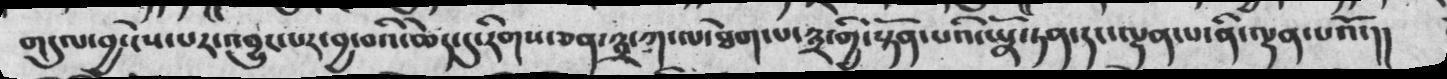གདུལ་བྱ་ངེས་པར་འབྱུང་པར་བྱ་བའི་ཆེད་དུ་རིགས་ཅན་༣་ཀ་ལ་ཐེག་པ་༣་གྱི་སྟོན་པའི་ཡོན་ཏན་ལྡན་པ་ནི་ལྡན་པའོ
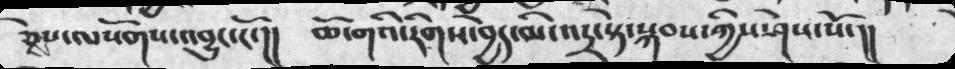ཅེས་པ་ལསོགས་འབྱུང་ངོ་།།  ཆོ་གའི་རིགས་བྱེད་མི་འདྲ་སྟེ་སྐབས་ཀྱིས་ཤེས་སོ་།།
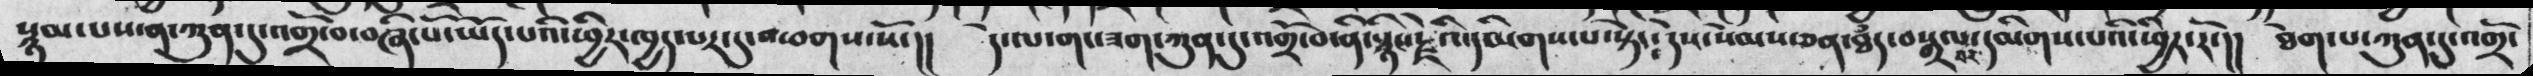སྙམ་པས་ན་ཀུན་དུ་འགྲོ་བ་བཞི་པོ་ཡོད་པའི་ཕྱིར་ཁྱད་པར་དུ་འཕགས་སོ་།།  དེ་ལ་གང་ཟག་ཀུན་དུ་འགྲོ་བ་ནི་སྙིང་རྗེའི་དམིགས་པ་སྟེ༴  དེས་སེམས་ཅན་ཐཾད་བསྒྲལ་བར་དམིགས་པའི་ཕྱིར་རོ་།།  ཐེག་པ་ཀུན་དུ་འགྲོ་
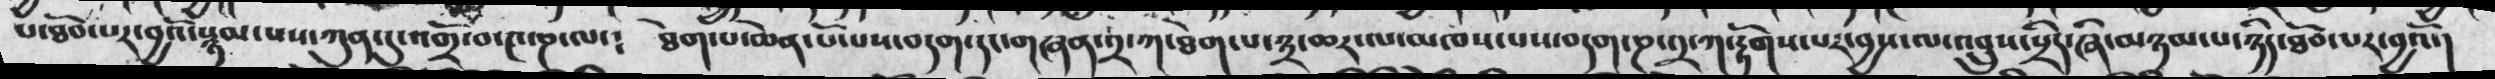པ་ཐོབ་པར་བྱའོ་སྙམ་པས་ཀུན་དུ་འགྲོ་བ་༤་ཎ་ལ་༴  ཐེག་པ་ཆེན་པོ་པས་བདག་དང་གཞན་༢་ཀ་ཐེག་པ་༣་ཆར་ལ་མཁས་པས་བདག་ཎ་༢་ཀ་རྟོགས་པར་བྱས་ལ་འབྲུས་སྲིད་ཞི་མཉམ་པ་ཉིད་ཐོབ་པར་བྱའོ་།
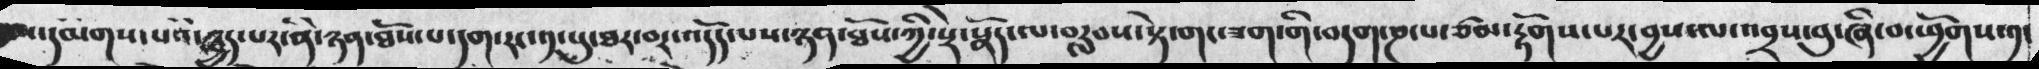་དམགས་པའི་ཁྱད་པར་ནི་ཉན་ཐོས་པ་དག་རང་༡་པུ་ཐར་བར་འདོད་པས་ཉན་ཐོས་ཀྱི་སྡེ་སྣོད་ལ་བརླབས་སྟེ་གང་ཟག་གི་བདག་ཎ་པ་ཙམ་རྟོགས་པར་བྱས་ལ་འབྲས་བུ་ཞི་བ་ཕྱོགས་༡་
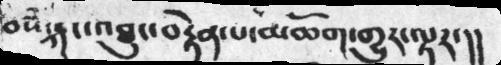བསཾ་རྐང་འཐུང་བརྟེན་པ་མཆོག་གྱུར་ལྟར་།།
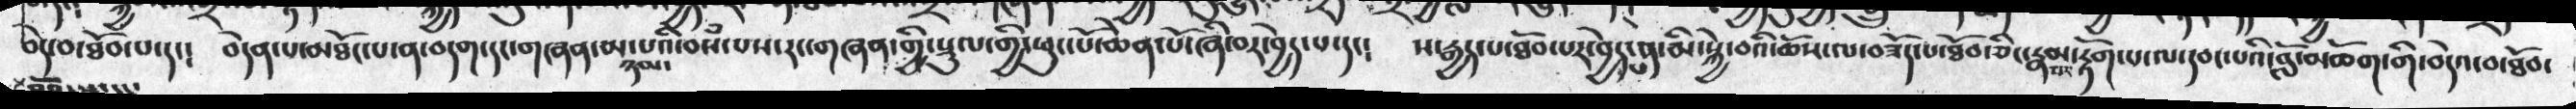བདེ་བ་ཐོབ་པ་དང་༴  བདེན་པ་མཐོང་པ་ན་བདག་དང་གཞན་མ་ཉམ་པའི་བསཾ་པས་རང་གཞན་གྱི་སྡུལ་གྱི་ཕུང་པོ་ཞི་བར་བྱེད་པ་དང་༴  ས་རྒྱད་པ་ཐོབ་པར་བྱེད་པ་ན་མི་སྐྱེ་བའི་ཆོས་ལ་བཟོད་པ་ཐོབ་ཅིང་རྣམ་པར་རྟོག་པ་ལ་དབང་པའི་བློ་མཆོག་གི་བདེའ་བ་ཐོབ་
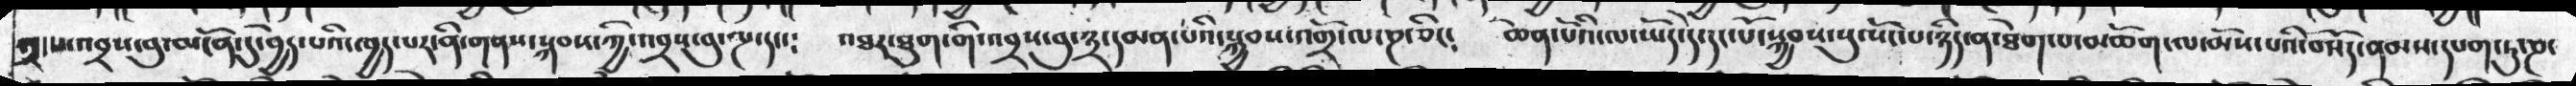༢་པ་འབྲས་བུ་མངོན་དུ་བྱེད་པའི་ཁྱད་པར་ནི་གནས་སྐབས་ཀྱི་འབྲས་བུ་ལྔ་དང་༴  འཐར་ཐུག་གི་འབྲས་བུ་༣་དམན་པའི་སྐྱབས་འགྲོ་ལ་ཎ་ཅིང༴  ཆེན་པོའི་ལ་ཡོད་དེ་དང་པོ་སྐྱབས་སུལོང་པ་ཉིད་ན་ཐེག་པ་མཆོག་ལ་མོས་པའི་བསོད་ནམས་དཔག་ཏུ་ཎ་
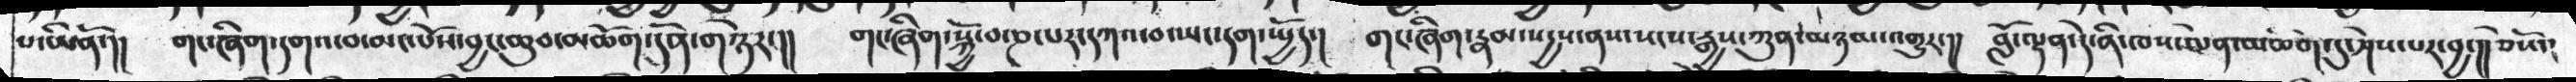པ་ཡིནོ་།།  གང་ཞིག་དགའ་བ་མང་པོས་བྱང་ཆུབ་མཆོག་དོན་གཉེར་།།  གང་ཞིག་སྐྱོ་བ་ཎ་པར་དཀའ་བ་ཡང་དག་སྤྱོད་།  གང་ཞིག་རྣམ་པརྱས་ནས་སངས་རྒྱས་ཀུན་མཉམ་འགྱུར་།།  བློ་ལྡན་དེ་ནི་ཁས་ལེན་མཆོག་དུ་ཤེས་པར་བྱ་།།ཅེསོ་༴
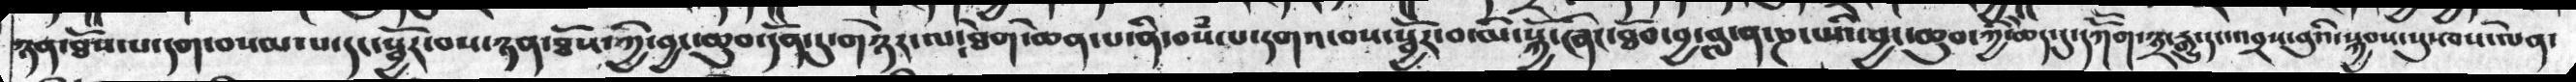ཉན་ཐོས་པ་དག་བསམ་པ་དང་སྦྱོར་བས་ཉན་ཐོས་ཀྱི་བྱང་ཆུབ་དོན་དུ་གཉེར་ལ༴  ཐེག་ཆེན་པ་ནི་བསཾ་པ་དགའ་བས་སྦྱོར་བ་མི་སྐྱེ་ཞིང་ཐོབ་བྱ་བླ་ན་ཎ་པའི་བྱང་ཆུབ་ཀྱི་ཆེད་དུ་དཀོོན་༣་རྒྱུ་དང་འབྲས་བུའི་སྐྱབས་སུ་ཁས་ལེན་
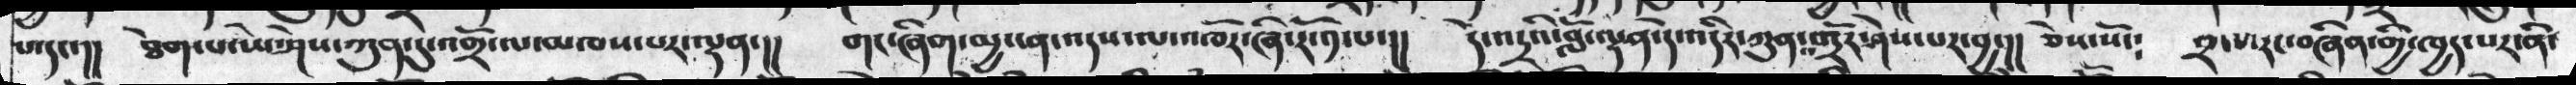པ་དང་།།  ཐེག་པ་ཡེ་ཤེས་ཀུན་དུ་འགྲོ་ལ་མཁས་པར་ལྡན་།།  གང་ཞིག་མྱ་ངན་འདས་པ་འཁོར་ཞི་རོ་༡་པ་།།  དེ་འདྲའི་བློ་ལྡན་དེ་འདིར་ཀུན་འགྲོར་ཤེས་པར་བྱ་།།  ཅེས་སོ༴  ༢་པ་རང་བཞིན་གྱི་ཁྱད་པར་ནི་
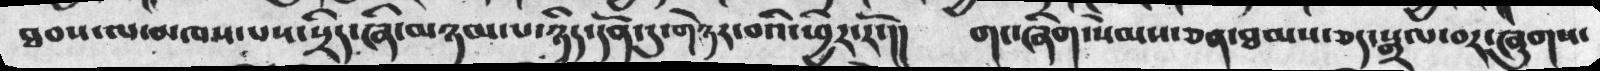ཐབས་ལ་མཁས་པས་སྲིད་ཞི་མཉམ་པ་ཉིད་དོན་དུ་གཉེར་བའི་ཕྱིར་རོ་།།  གང་ཞིག་སེམས་ཅན་ཐམས་ཅད་སྒྲལ་བར་ཞུགས་
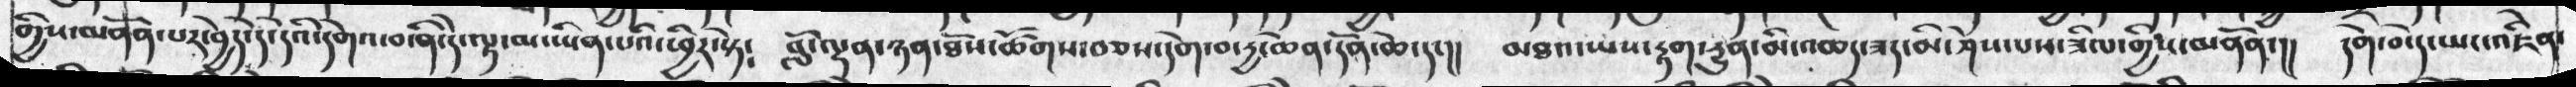གྱིས་མནོན་པར་བྱེད་དེ་དེའི་དགེའ་བ་ནི་དེ་ལྟ་མ་ཡིན་པའི་ཕྱིར་སྟེ༴  བློ་ལྡན་ཉན་ཐོས་ཚོགས་བཅས་དགེ་བ་དྱ་ཆེན་དོན་ཆེ་དང་།།  མཐའ་ཡས་རྟག་རྱུན་མི་འཆད་ཟད་མི་ཤེས་པས་ཟིལ་གྱིས་མནོན་།།  དགེ་ན་དེ་ཡང་འཇིན
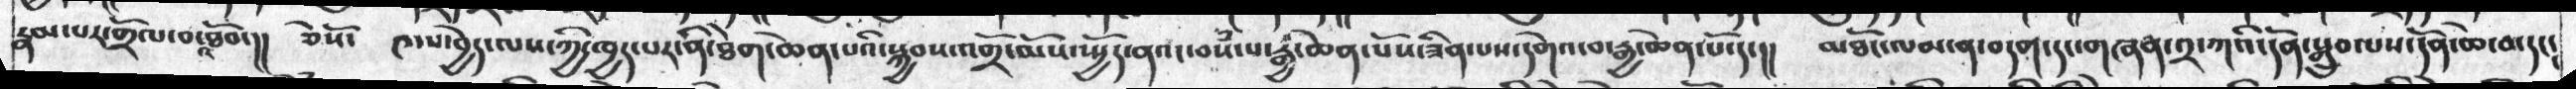རྣམ་པར་གྲོལ་བ་འཐོབ་།།  ཅེསོ་   ༤་པ་བྱེད་ལས་ཀྱི་ཁྱད་པར་ནི་ཐེག་ཆེན་པའི་སྐྱབས་འགྲོ་མོས་ཡྱོད་ནའང་བསཾ་པ་རྒྱ་ཆེན་པོས་ཟིན་པས་དགེའ་བ་རྒྱ་ཆེན་པོ་དང་།།  མཐོང་ལམ་ན་བདག་དང་གཞན་༢་ཀའི་དོན་སྒྲུབ་པས་དོན་ཆེ་བ་དང་
